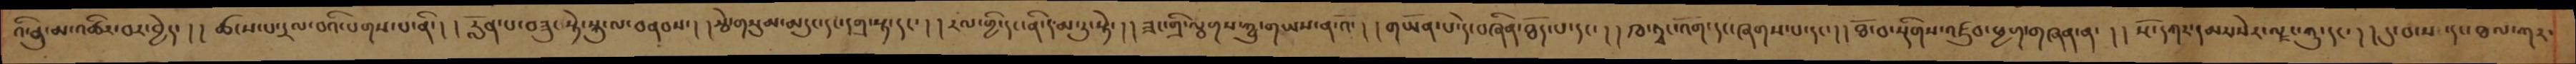འི་ནུ་མ་འཚིར་བར་བྱེད་ ། །ཚངས་པ་དྲལ་བའི་པགས་པ་ནི་། །རློན་པ་བཟུང་སྟེ་སྐུ་ལ་བནབས་། །རྩེ་གསུམ་མདུང་དང་དགྲ་སྟ་དང་ ། །རལ་གྱི་དང་ནི་ད་མ་རུ་སྟེ་། །ཟང་གྲི་ལྕགས་ཀྱུ་གཡས་ན་འོ་། །གཡོན་པ་དེ་བཞིན་ཐོད་པ་དང་། །ཁ་ཏྭང་འགོ་དང་ཞགས་པ་དང་།། ཐོ་བ་སྡིགས་འཛུབ་ཕྱག་གཞན་ན་ །། སྔོ་དཀར་དམར་སེར་ལྗང་ཀུ་དང་ ། །དུ་བ་ས་དང་ཐལ་ཀར་
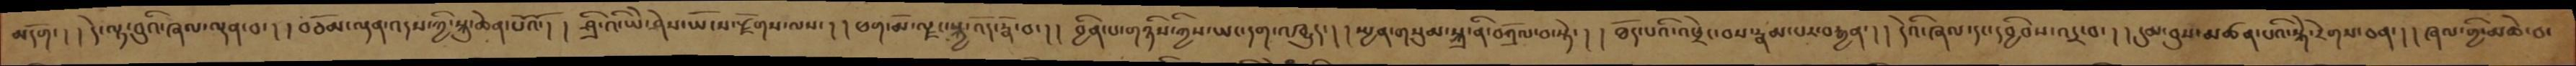མདོག་། །དེ་ལྟ་བུའི་ཞལ་ལྡན་པ་། །བཅོམ་ལྡན་འདས་ཀྱི་སྐུ་ཆེན་པོའོ་། །ཤྲི་འི་ཡེ་ཤེས་ཡོངས་རྫོགས་ལས་། །ཕག་མོ་ལྗང་སྐྱ་འོད་རྣོ་བ་།། བྱིན་པ་གཉིས་ཀྱིས་ཡང་དག་འཁྱུད་། །སྤྱན་གསུམ་སྐྲ་ནི་བཀྲོལ་བ་སྟེ་། །ཐོད་པའི་འཕྲེང་བས་རྣམ་པར་བརྒྱན་། །དེའི་ཞལ་དང་དབྱིབས་འདྲ་བ་། །དུམ་བུས་མཚན་པའི་སྐེ་རེགས་ཅན་། །ཞལ་གྱི་མཆེ་བ་
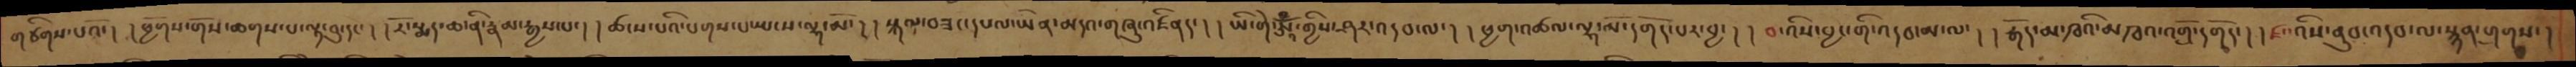གཙིགས་པའོ་། །ཕྱོགས་གོས་ཆགས་པ་ལྟ་བུ་དང་ ། །རོ་སྨད་ཆ་ནི་རྣམ་རྒྱས་པ་། །ཚངས་པའི་པགས་པ་ཡངས་ལྷ་མོ་། །སྐལ་བཟང་དཔལ་ཡོན་མདའ་གཞུ་འཛིནད་ ། །ཡི་གེ་ཨཱོྃ་གྱིས་ཤར་འདབ་ལ་། །ཕྱག་འཚལ་ལྷ་མོ་དགོད་པར་བྱ་ ། །བ་འིས་བྱང་གི་འདབ་མ་ལ་ ། །རྒོད་མ་ཁའི་མཁའ་འགྲོ་དགོད་ ། །ཛ་འིས་ནུབ་འདབ་ལ་སྙན་གྲགས་།
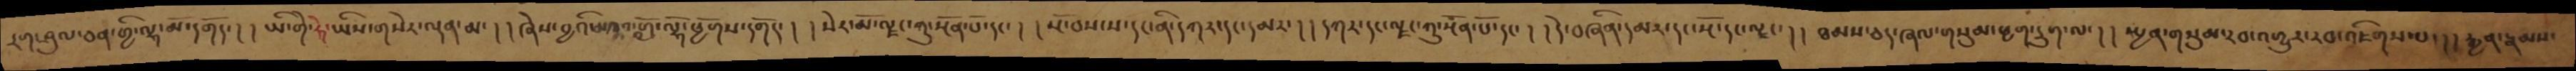རག་ཤུལ་ཅན་གྱི་ལྷ་མོ་དགོད་། །ཡི་གེ་ཧེ་ཡིས་གསེར་ལྡན་མ་། །ཞེས་བྱའི་མཁའ་འགྲོ་ལྷོ་ཕྱོགས་དགོད་། །སེར་མོ་ལྗང་གུ་སྔོན་པོ་དང་། །སྔོ་བས་དང་ནི་དཀར་དང་དམར་། །དཀར་དང་ལྗང་ཀུ་སྔོན་པོ་དང་། །དེ་བཞིན་དམར་དང་སྔོ་དང་ལྗང་། །ཐམས་ཅད་ཞལ་གསུམ་ཕྱག་དྲུག་ལ་། །སྤྱན་གསུམ་རབ་འགྱུར་རབ་འཇིགས་པ་། །རྒྱན་རྣམས་
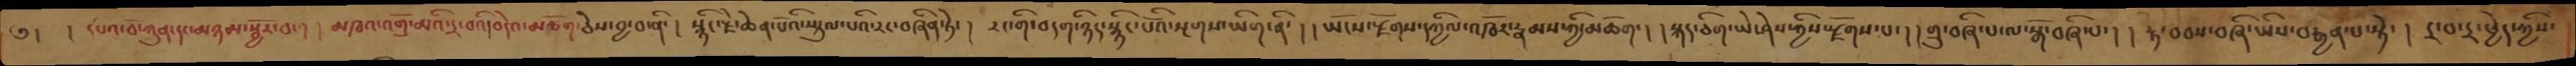༅། །དཔའ་བོ་ཀུན་དང་མཉམ་སྦྱོར་བ་། །མཁའ་འགྲོ་མའི་དྲ་བའི།བདེའ་མཆོག་ཅེས་བྱ་བ་ནི་། སྙིང་རྗེ་ཆེན་པོའི་སྤྲུལ་པའི་རང་བཞིན་ཏེ་། རང་གི་བདག་ཉིད་སྙིང་པོའི་སྔགས་ཡིག་ནི་། །ཡོངས་རྫོགས་དཀྱིལ་འཁོར་རྣམས་ཀྱི་མཆོག་། །སྐད་ཅིག་ཡེ་ཤེས་ཀྱིས་རྫོགས་པ་། །གྲུ་བཞི་པ་ལ་སྒོ་བཞི་པ་། །རྟ་བབས་བཞི་ཡིས་བརྒྱན་པ་སྟེ་། དྲ་བ་དྲ་ཕྱེད་ཀྱིས་
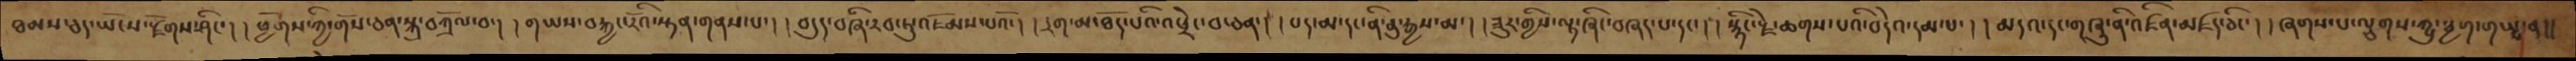ཐམས་ཅད་ཡོངས་རྫོགས་ཤིང་། །ཕྱོགས་ཀྱི་གོས་ཅན་སྐྲ་བཀྲོལ་བ་། །གཡས་བརྐྱང་རོའི་སྟན་གནས་པ་། །བདུད་བཞི་རབ་ཏུ་འཇོམས་པའོ་། །དྲག་མ་ཐོད་པའི་འཕྲེང་བ་ཅན་། །པད་མ་དང་ནི་ནུ་རྒྱས་མ་། །ཟུར་གྱིས་ལྟ་ཞིང་བཞད་པ་དང་། །སྙིང་རྗེ་ཆགས་པའི་བདེའ་དམ་པ་། །མདའ་དང་གཞུ་ནི་འཛིན་མཛད་ཅིང་། །ཞགས་པ་ལྕགས་ཀྱུ་ཕྱག་གཡས་ན།།
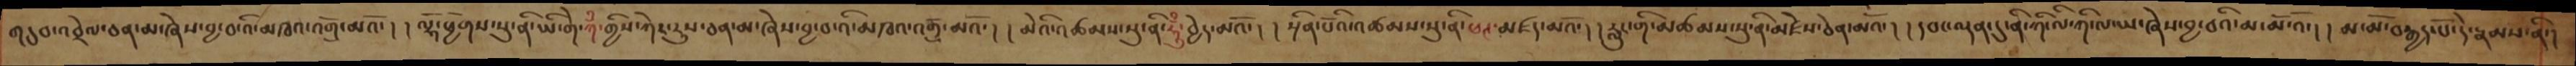གདུབ་འབྲེལ་ཅན་མ་ཞེས་བྱ་བ་འི་མཁའ་འགྲོ་མའོ་། །ལྷོ་ཕྱོགས་སུ་ནི་ཡི་གེ་ཀྃ་གྱིས་ཀེང་རུས་ཅན་མ་ཞེས་བྱ་བ་འི་མཁའ་འགྲོ་མའོ་། །མེའི་འཚམས་སུ་ནི་ཧཱུྃ་བྱེད་མའོ་། །སྔོན་པོའི་འཚམས་སུ་ནི་ཕཊ་མཛད་མའོ་། །རླུང་ག་མཚམས་སུ་ནི་མཛེས་ཅེན་མའོ་། །དབང་ལྡན་དུ་ནི་ཀི་ལི་ཀི་ལི་ཡ་ཞེས་བྱ་བའི་མ་མོ་འོ་། །མ་མོ་བརྒྱད་པོ་དེ་རྣམས་ནི་།
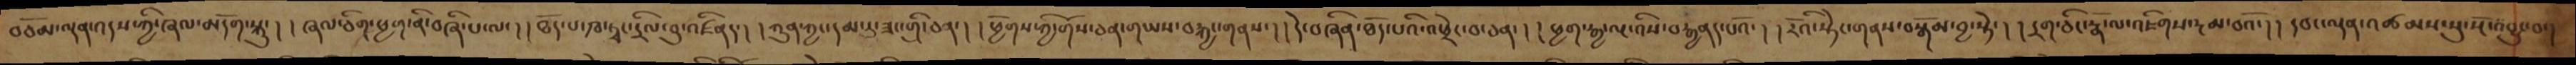བཅོམ་ལྡན་འདས་ཀྱི་ཞལ་མདོག་སྐུ་། །ཞལ་གཅིག་ཕྱག་ནི་བཞི་པ་ལ་། །ཐོད་པ་ཁ་ཏྭང་དྲིལ་བུ་འཛིནད་། །ཀུན་ཀྱང་དམ་རུ་ཟང་གྲི་ཅན་། །ཕྱོགས་ཀྱི་གོས་ཅན་གཡས་བརྐྱང་གནས་། །དེ་བཞིན་ཐོད་པའི་འཕྲེང་བ་ཅན་། །ཕྱག་རྒྱ་ལྔ་འིས་བརྒྱནད་པའོ་། །རོའི་སྟེང་གནས་བསྒོམ་བྱ་སྟེ་། དྲག་ཅིང་རྣོ་ལ་འཇིགས་རྔམ་བའོ་ །དབང་ལྡན་འཚམས་སུ་སྔོ་འབྱུང་བ་།
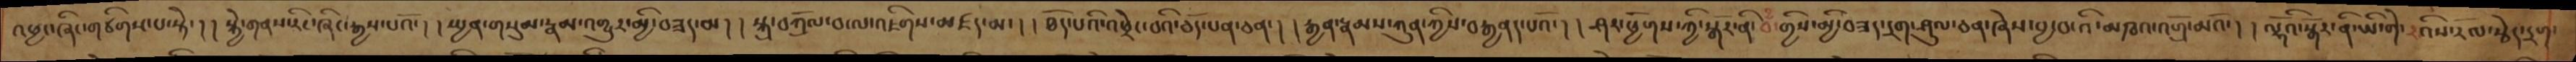འཕྱའ་ཞིང་གཙིགས་པ་སྟེ་ །། སྐྱེ་གནས་རིང་ཞིང་རྒྱས་པའོ་ །། སྤྱན་གསུམ་རྣམ་འགྱུར་མྱི་བཟད་མ །། སྐྲ་བཀྲོལ་བ་ལ་འཇིགས་མཛད་མ་ །། ཐོད་པའི་འཕྲེང་བའི་ཅོད་པན་ཅན་ །། རྒྱན་རྣམས་ཀུན་ཀྱིས་བརྒྱནད་པའོ་ །། ཤར་ཕྱོགས་ཀྱི་སྒོར་ནི་བྃ་གྱིས་མྱི་བཟད་དྲག་ཤུལ་ཅན་ཞེས་བྱ་བ་འི་མཁའ་འགྲོ་མའོ་ །། ལྷོའི་སྒོར་ནི་ཡི་གེ་རའིས་རོལ་རྩེད་དྲག་
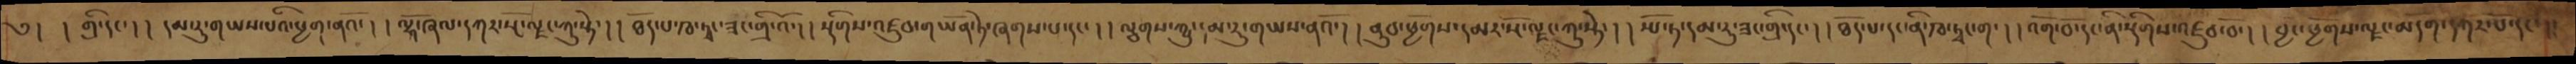༅།  ། གུ་རིང་། །དམ་ཏུ་གཡས་པའི་ཕྱག་ནའོ་། །ལྷོ་ཞལ་དཀར་སྔོ་ལྗང་ཀུ་སྟེ་། །ཐོད་པ་ཁ་ཏྭང་ཟང་གྲི་འོ་། །སྡིགས་འཛུབ་གཡོན་ཏེ་ཞགས་པ་དང་། །ལྕགས་ཀྱུ་དམ་ཏུ་གཡས་ནའོ་ །། ནུབ་ཕྱོགས་དམར་སྔོ་ལྗང་ཀུ་སྟེ་། །ཡོ་ཏ་དམ་ཏུ་ཟང་གྲི་དང་ །། ཐོད་པ་དང་ནི་ཁ་ཏྭང་ག་། །འགོ་བོ་དང་ནི་སྡིགས་འཛུབ་བོ་། །བྱང་ཕྱོགས་ལྗང་མདོག་དཀར་པོ་དང་། །
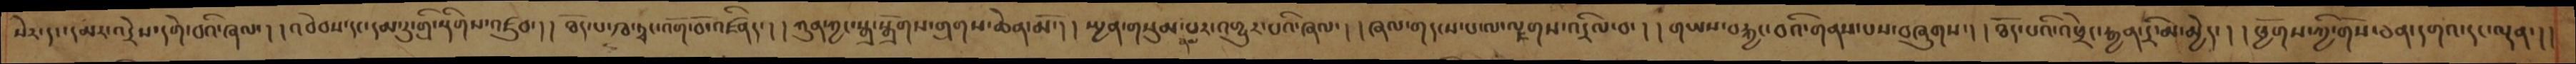སེར་དང་དམར་འདྲེས་དགེ་བའི་ཞལ་། །འབེབས་དང་དམ་རུ་གྲི་སྡིགས་འཛུབ་། །ཐོད་པ་ཁ་ཏྭང་འགོ་བོ་འཛིནད་། །ཀུན་ཀྱང་སྒྲ་སྒྲོགས་གྲགས་ཆེན་མོ་། །སྤྱན་གསུམ་རྣམ་པར་འགྱུར་པའི་ཞལ་། །ཞལ་གདངས་ས་ལ་ལྗགས་འདྲིལ་བ་། །གཡས་བརྐྱང་བའི་གནས་པས་བཞུགས་། །ཐོད་པའི་འཕྲེང་རྒྱན་དྲི་མ་མྱེད་། །ཕྱོགས་ཀྱི་གོས་ཅན་དགའ་དང་ལྡན་།།
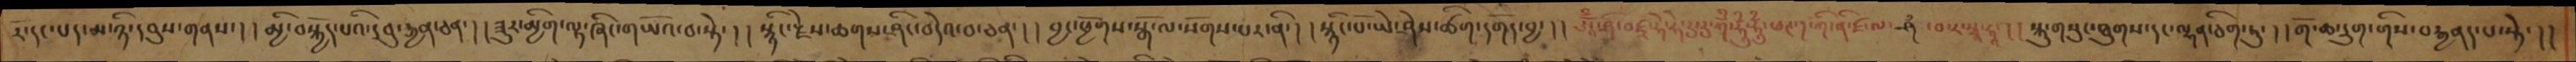རོ་དང་པད་མ་ཉི་དབུས་གནས་།། །མྱི་བསྐྱོད་པའི་དབུ་རྒྱན་ཅན་། །ཟུར་མྱིག་ལྟ་ཞིང་གཡོའ་བ་སྟེ་། །སྙིང་རྗེས་ཆགས་ཤིང་བདེའ་བ་ཅན་། །བྱང་ཕྱོགས་སྒོ་ལ་སོགས་པར་ནི་། །སྙིང་པོ་ཡེ་ཤེས་ཚིག་དགོད་བྱ་། །ཨཱོྃ་ཤྲི་བཛྲ་ཧེ་ཧེ་རུ་རུ་ཀྃ་ཧཱུྃ་ཧཱུྃ་ཕཊ་། ཀི་ནི་ཛ་ལ་ཤྃ་བ་ར་སྭཱ་ཧཱ་། །སྐུ་གསུང་ཐུགས་དང་ལྷན་ཅིག་ཏུ་། །གོ་ཆ་དྲུག་གིས་བརྒྱནད་པ་སྟེ་།།
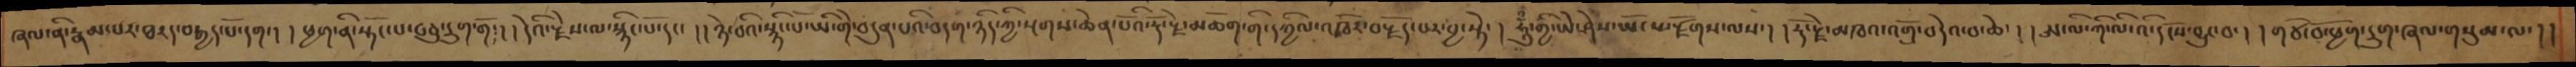ཞལ་ནི་རྣམ་པར་ཐརད་བརྒྱད་པོ་དག་། །ཕྱག་ནི་སྟོང་པ་བཅུ་དྲུག་གོ་། །དེའི་རྗེས་ལ་སྙིང་པོ་དང་། །ཉེ་བའི་སྙིང་པོ་ཡི་གེ་བདུན་པའི་བདག་ཉིད་ཀྱི་སྔགས་ཆེན་པོའི་རྡོ་རྗེ་མཆོག་གི་དཀྱིལ་འཁོར་བརྗོད་པར་བྱ་སྟེ་། ཧཱུཾ་གྱི་ཡེ་ཤེས་ཡོངས་རྫོགས་ལས་། །རྡོ་རྗེ་མཁའ་འགྲོ་བདེའ་བ་ཆེ་། །ཨ་ལི་ཀི་ལི་འི་དངོས་བྱུང་བ་། །གཙོ་བོ་ཕྱག་དྲུག་ཞལ་གསུམ་ལ་།།
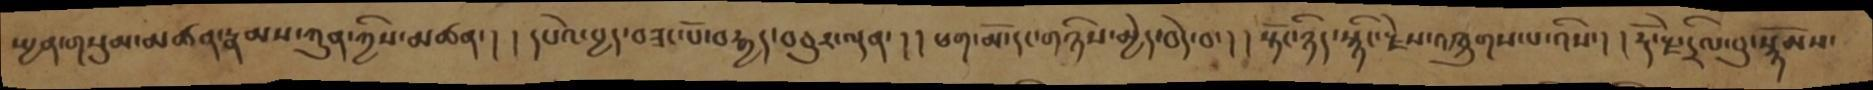སྤྱན་གསུམ་མཚན་རྣམས་ཀུན་གྱིས་མཚན་། ། དཔེའ་བྱད་བཟང་པོ་བརྒྱད་བཅུར་ལྡན་། །ཕག་མོ་དང་གཉིས་མྱེད་བདེ་བ་། །སྟོང་ཉིད་སྙིང་རྗེས་འཁྲུགས་པ་འིས་། །རྡོ་རྗེ་དྲིལ་བུ་སྙོམས་
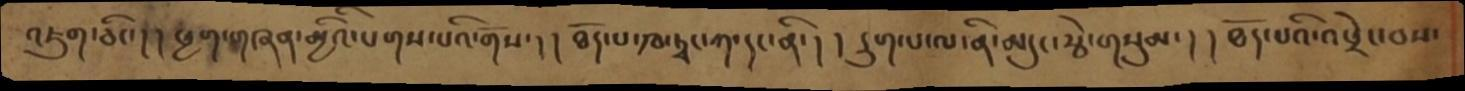འཇུག་ཅིང་། ། ཕྱག་གཞན་མྱིའི་སོགས་པའི་གོས་། །ཐོད་པ་ཁ་ཏྭང་ཀ་དང་ནི་། །དྲུག་པ་ལ་ནི་མདུང་རྩེ་གསུམ་། །ཐོད་པའི་འཕྲེང་བས་
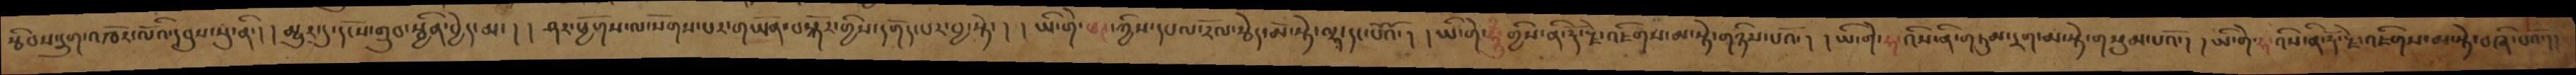རྩིབས་དྲུག་འཁོར་ལོའི་དབུས་སུ་ནི་། །མྱུར་དུ་དངོས་གྲུབ་སྦྱིན་བྱེད་མ་། །ཤར་ཕྱོགས་ལ་སོགས་པར་གཡོན་བསྐོར་གྱིས་དགོད་པར་བྱ་སྟེ་། །ཡི་གེ་ཕཊ་ཀྱིས་དཔལ་རོལ་རྩེད་མོ་སྟེ་ལྷ་དང་པོའོ་། །ཡི་གེ་ཧཱུྃ་གྱིས་ནི་རྡོ་རྗེ་འཇིགས་མ་སྟེ་གཉིས་པའོ་། །ཡི་གེ་ཧ་འིས་ནི་གཏུམ་དྲག་མ་སྟེ་གསུམ་པའོ་། །ཡི་གེ་ཧ་འིས་ནི་རྡོ་རྗེ་འཇིགས་མ་སྟེ་བཞི་པའོ་།།
